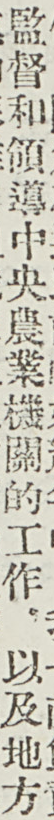監督和領導中央農業機關的工作，以及地方
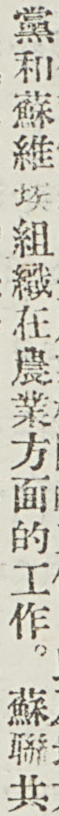黨和蘇維埃組織在農業方面的工作。蘇聯共
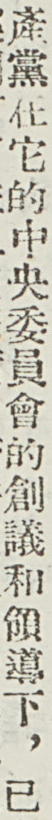產黨在它的中央委員會的創議和領導下，已
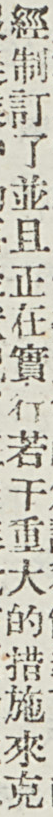經制訂了並且正在實行若干重大的措施來克
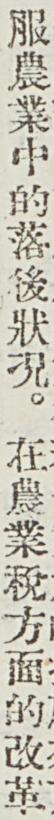服農業中的落後狀況。在農業稅方面的改革
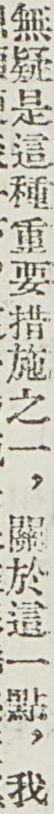無疑是這種重要措施之一，關於這一點，我
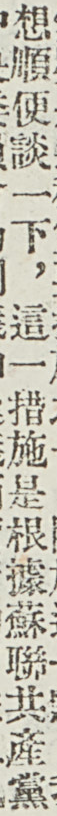想順便談一下，這一措施是根據蘇聯共產黨
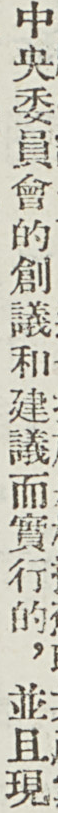中央委員會的創議和建議而實行的，並且現
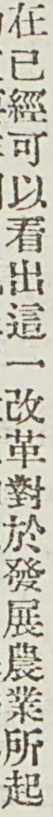在已經可以看出這一改革對於發展農業所起
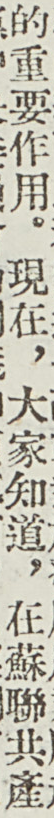的重要作用。現在，大家知道，在蘇聯共產
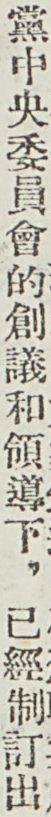黨中央委員會的創議和領導下，已經制訂出
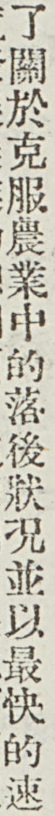了關於克服農業中的落後狀況並以最快的速
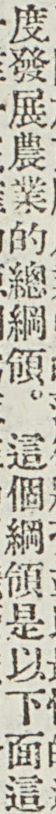度發展農業的總綱領。這個綱領是以下面這
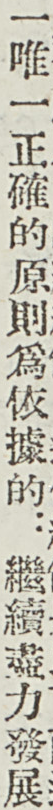一唯一正確的原則爲依據的：繼續盡力發展
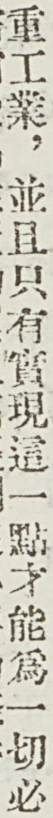重工業，並且只有實現這一點才能爲一切必
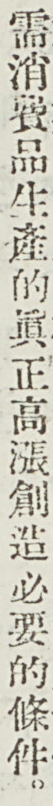需消費品生產的眞正高漲創造必要的條件。
